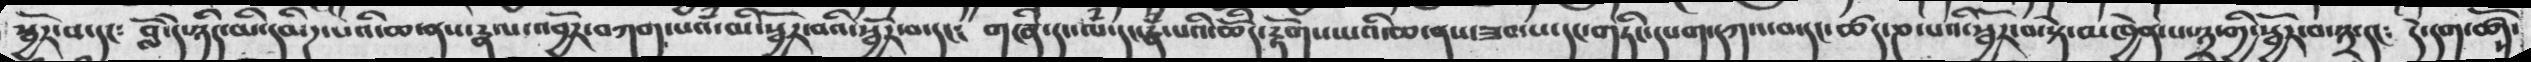སྦྱོར་བ་དང༴   བློ་དེ་ཉིད་མི་དམིཌ་པའི་ཆ་ནས་རྣལ་འབྱོར་བཀག་པའཾ་མི་སྦྱོར་བའི་བ་དང་  གཞི་དང་ལཾ་དང་རྣཾ་པའི་ཆོིད་རྟོགས་པའི་ཆ་ནས་ཟབ་པ་དང་གཏིང་དཔག་དཀའ་བ་དང་ཚད་ཎ་པའི་སྦྱོར་བ་སྟེ་མཁྱེན་པ་༣་གྱི་སྦྱོར་བ་༣་དང༴   དེ་དག་ཚོད་
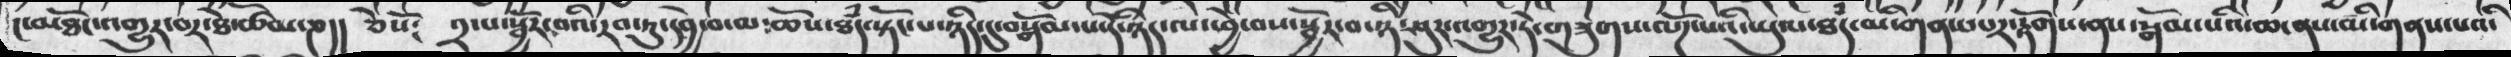ང་མཐོང་འགྱུར་བར་ཐེ་ཚོམ་ཎ།།  ཅེསོ༴  ༢་པ་སྦྱོར་བའི་རབ་ཏུ་དབྱེ་བ་མ་ཆོས་ཐཾད་སྟོང་པ་ཉིད་དུ་བསྒོམ་པ་དེ་ཉིད་ལ་ཕྱེ་བས་སྦྱོར་བ་ཉི་ཤུར་འགྱུར་ཏེ་གཟུགས་ལོཌ་པའི་ཡུལ་ཐཾད་མི་གནས་པར་རྟོགས་ནས་སྒོམ་པའི་ཆ་ནས་མི་གནས་པའི་
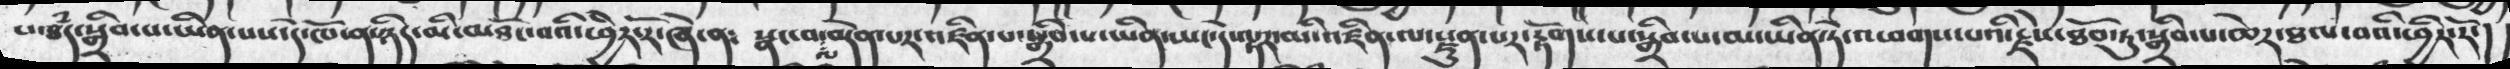པ་ཐཾད་སྒྲིབ་པ་ཡིན་པས་དེ་ཁོ་ན་ཉིད་མི་མཐོང་བའི་ཕྱིར་རོ་ཞེ་ན༴   སྣང་བ་ལ་བདེན་པར་འཛིན་པ་སྒྲིབ་པ་ཡིན་ཡང་དེ་ལྟར་མི་འཛིན་ལ་རྫུན་པར་རྟགས་པ་སྒྲིབ་པ་མ་ཡིན་ཏེ་འཕགས་པའི་རྗེས་ཐོབ་ཏུ་སྒྲིབ་པ་ཆེར་ཐལ་བའི་ཕྱིར་རོ་།།
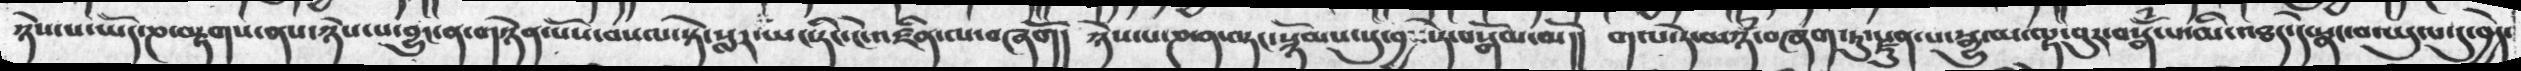ཉེས་པ་ཡོད་ཎ་བརྟགས་ནས་ཉེས་པ་བྱུང་ན་གཉེན་པོས་བསལ་སྟེ་སླར་ཡང་ཏིང་ངེ་འཛིན་ལ་བཞོག།  ཉེས་པ་ཎ་ན་བཏང་སྙོམས་སུ་བྱས་ཏེ་བསྒོམ་མོ།།  གལ་ཏེ་མཉཾ་བཞག་ཏུ་རྫུན་པ་སྒྱུ་མ་ལྟ་བུར་བསྒོཾ་པ་མི་འཐད་དེ་སྣང་བ་ཡུལ་དུ་བྱེད་
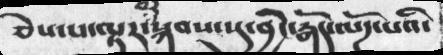ཅེས་པ་ལྟར་བར་སྐབས་སུ་བྱིང་རྒོད་ལོཌ་་པའི་
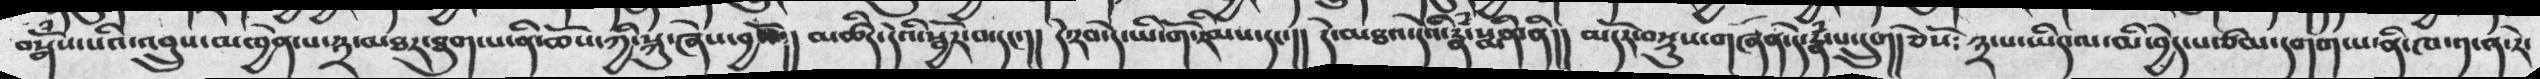བསྒོཾས་པའི་འབྲུས་མཁྱེན་པ་༣་མཐར་ཐུག་པ་ནི་ཆོས་ཀྱི་སྐུ་ཞེས་བྱའོ།། མཚིད་དེའི་སྦྱོར་བ་དང་།།  དེ་རབ་དེ་ཡི་གོ་རིམས་དང་།།  དེ་མཐའ་དེའི་རྣཾ་སྨིན་ནི།།   མདོར་བསྡུས་གཞན་དེ་རྣཾ་པ་དྲུག། ཅེསོ༴ ༣་པ་ཡིད་ལ་མི་བྱེད་པ་ཙམ་དགག་པ་ནི་ཁ་༡་ན་རེ་
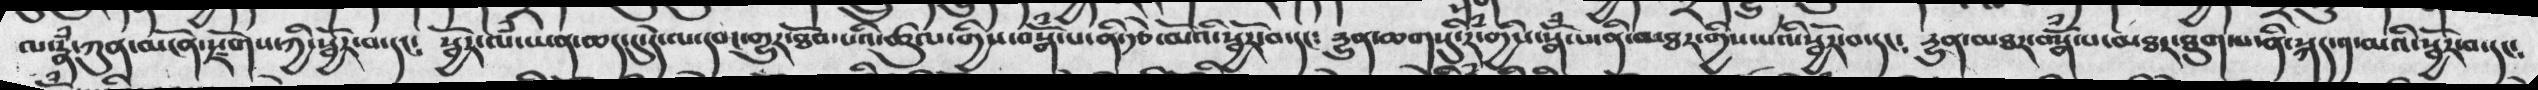ལ་རྣཾ་ཀུན་མངོན་རྫོགས་ཀྱི་སྦྱོར་བ་དང༴   སྦྱོར་ལཾ་ཡན་ཆད་དུ་དེ་ལ་དབང་གྱུར་ཐོབ་པའི་ཚུལ་གྱིས་བསྒོཾ་པ་ནི་རྩེ་མོའི་སྦྱོར་བ་དང༴  དྱུན་ཆགས་དུ་རིཾ་གྱི་སྒོྃ་པ་ནི་མཐར་གྱིས་པའི་སྦྱོར་བ་དང༴   དྱུན་མཐར་བསྒོཾ་པ་མཐར་ཐུག་པ་ནི་སྐད་༡་མའི་སྦྱོར་བ་དང༴
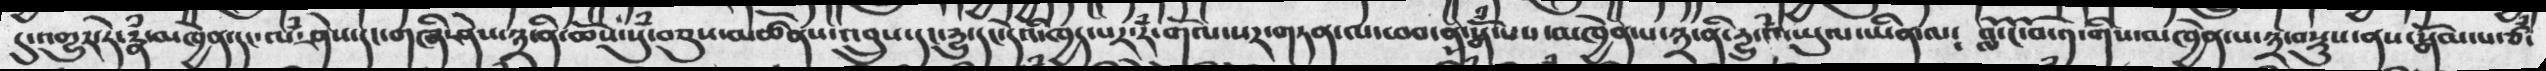དུ་འགྱུར་ཏེ་རྣཾ་མཁྱེན་དང་ལཾ་ཤེས་དང་གཞི་ཤེས་༣་ནི་ཆོས་སུཾ་བཅུས་མཚོནས་འབྲུས་དང་དྱུ་དང་དེའི་ཁྱད་པར་རཾ་གོལ་པར་གཏན་པ་ཕབ་ནི་སྒོཾ་པས་མཁྱེན་པ་༣་ནི་དྱུ་འཾ་ཡུལ་ཡིན་ལ༴   བློ་ངོ་བོ་༡་གིས་མཁྱེན་པ་༣་བསྡུས་ནས་སྒོམ་པ་ཙཾ་
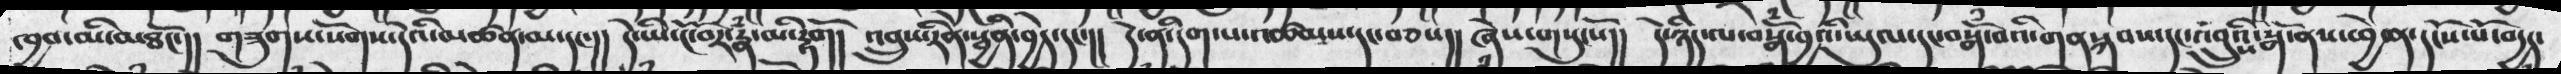ཁྱབ་མི་མཐོང་།།   གཟུགས་སོགས་དེའི་མཚན་མ་དང་།།   དེ་ཡི་ངོ་བོར་རྣཾ་མི་རྟོག།    འབྲུས་རིནེ་སྦྱིན་བྱེད་དང་།།  དེ་ནི་དག་པ་འཚམས་དངད་བཅས།།  ཞེས་གསུངསོ།།  དེ་ཉིད་ལ་བསྒོ་བྱའི་ཡུལ་དང་བསྒོཾ་པའི་གནསྐབས་དང་འབྲུསའི་སྒོ་ནས་ཕྱེ་ན་དངོས་པོ་བདྱད་
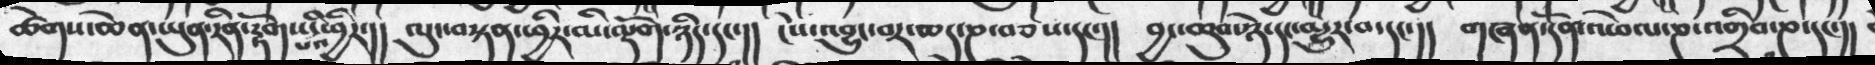ཚེགས་ཆེན་ཡུན་རིན་རྟོགས་པའི་ཕྱིར་།།   ལུང་བསྟན་ཕྱིར་མི་ལྡོག་ཉིད་དང་།།  ངེས་འབྱུང་བར་ཆད་ཎ་བཅས་དང་།།   བྱང་ཆུབ་ཉེ་དང་མྱུར་བ་དང་།།   གཞན་དོན་འཕེལ་ཎ་འགྲིབ་ཎ་དང་།།
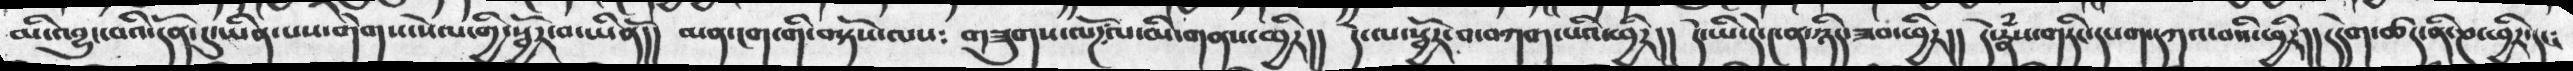མི་འབྱུང་བའི་དོན་དུ་ཡིན་པས་གེགས་སེལ་གྱི་སྦྱོར་བ་ཡིནོ།།  མན་ངག་གི་བལྟོས་ལས༴ གཟུགས་ལོཌ;ལ་མི་གནས་ཕྱིར།།  དེ་ལ་སྦྱོར་བ་བཀག་པའི་ཕྱིར།། དེ་ཡི་དེ་༤ན་ཉིད་ཟབ་ཕྱིར།། དེ་རྣཾས་གཏིང་དཔག་དཀའ་བའི་ཕྱིར།། དདེག་ཚད་ནི་ཎ་ཕྱིར་དང༴
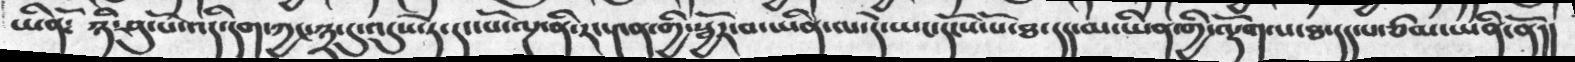ཡིནོ༴  ཉི་ཤུ་པོ་འདི་དག་ཀྱང་༣་དུ་འདུས་ཏེ་དང་པོ་ལྔ་ནི་རང་༤ན་གྱི་སྦྱོར་བ་ཡིན་པ་དེ་ཡང་དངོས་པོ་ཐ་དད་མ་ཡིན་གྱི་ལྡོག་པ་ཐ་དད་པ་ཙམ་ཡིན་ནོ།།
